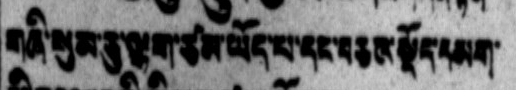གཞི་སུམ་ཅུ་ལྷག་ཙམ་ཡོད་པ་དང་བཅའ་སྡོད་དམག་
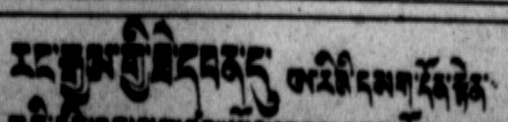རང་རྒྱལ་གི་ཐེ་དབན་དུ་ ཨ་རིའི་དམག་དོན་རྟེན་
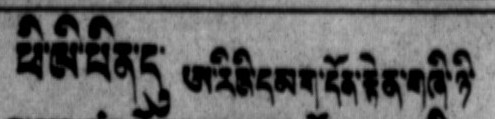ཕི་ལི་པན་དུ་ ཨ་རིའི་དམག་དོན་རྟེན་གཞི་ཉི་
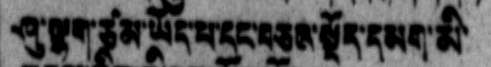ཤུ་ལྷག་ཙམ་ཡོད་པ་དང་བཅའ་སྡོད་དམག་མི་
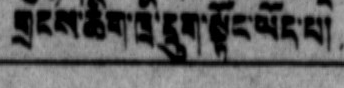གྲངས་ཆིག་ཁྲི་དྲུག་སྟོང་ཡོད་པ།
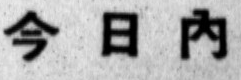今 日 內
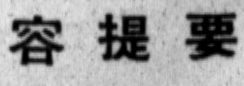容 提 要
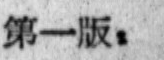第一版：
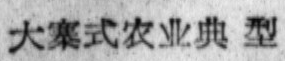大寨式农业典型
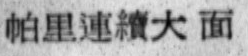帕里連續大面
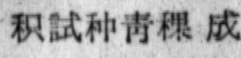积試种靑稞成
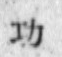功
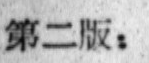第二版：
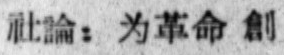社論：为革命 創
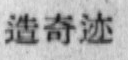造奇迹
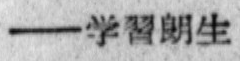——学習朗生
